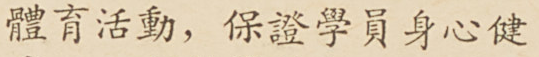體育活動，保證學員身心健
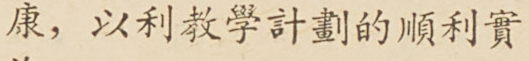康，以利教學計劃的順利實
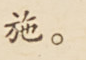施。
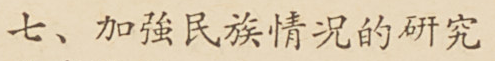七、加強民族情況的研究
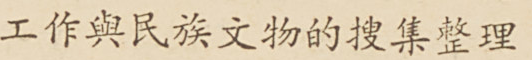工作與民族文物的搜集整理
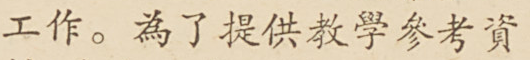工作。爲了提供教學參考資
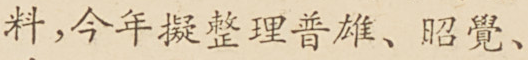料，今年擬整理普雄、昭覺、
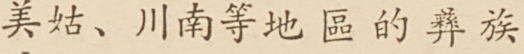美姑、川南等地區的彝族
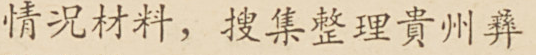情況材料，搜集整理貴州彝
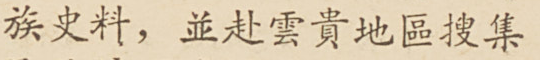族史料，並赴雲貴地區搜集
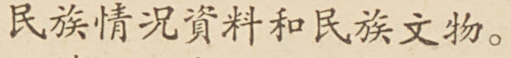民族情況資料和民族文物。
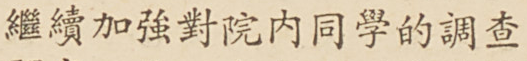繼續加強對院內同學的調查
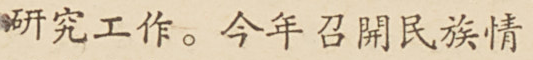研究工作。今年召開民族情
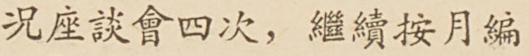況座談會四次，繼續按月編
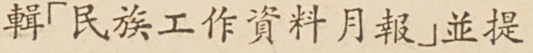輯「民族工作資料月報」並提
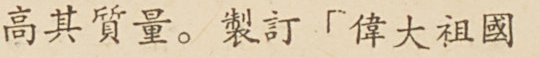高其質量。制訂「偉大祖國
